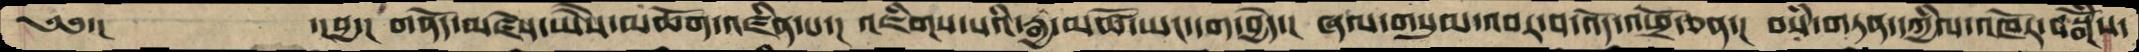༄༅་།     ་།བྱ་།  གནོད་མཛེས་ཡཻས་མཆོག་འཛིན་པ་།   འཇིགས་པའི་རྒྱ་མཚོ་ཡང་དག་བྱེད་།  ཞལ་གསུམ་འབར་བ་འོད་འཕྲོ་ཅན་།  བསཾ་གཏན་དཀྱིལ་འཁོར་བསྒོཾས་
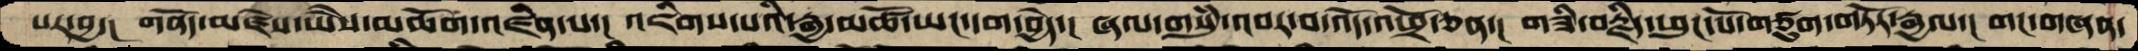པར་བྱ་།  གནོད་མཛེས་ཡཻས་མཆོག་འཛིན་པ་།  འཇིགས་པའི་རྒྱ་མཚོ་ཡང་དག་བྱེད་།  ཞལ་གསུཾ་འབར་བ་འོད་འཕྲོ་ཅན་།  གཟི་བརྗིད་ཕུང་པོ་གཙུག་གཏོར་རྒྱལ་།  གང་གཞན་
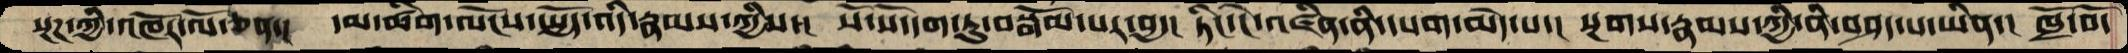སྔཌ་ཀྱི་འཁོར་ལོ་ཅན་།  དམ་ཚིག་ལོངས་སྤྱོད་འདི་རྣམས་ཀྱིས་།  སོ་སོ་དག་ཏུ་བསྒོམ་པར་བྱ་།  ཏིང་ངེ་འཛིན་ནི་དཔག་མེད་པ་།  སྔགས་རྣམས་ཀྱི་ནི་བཤད་པ་ཡིན་།  ཁྲོ་བོ་
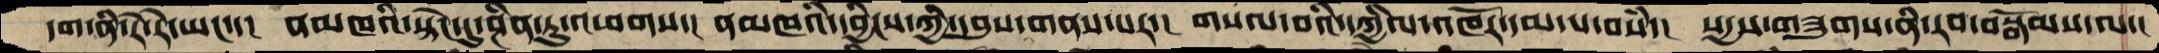དག་ནི་རེ་རེ་ཡང་་།  ནམཁའི་སྟེང་དུ་ཤིན་ཏུ་འཕགས་།  ནམཁའི་དབྱིངས་ཀྱི་དབུས་གནས་པར་།  གསལ་བའི་དཀྱིལ་འཁོར་དམ་པ་བསཾ་།  སདྱས་གཟུགས་ནི་རབ་བསྒོམས་ལ་།
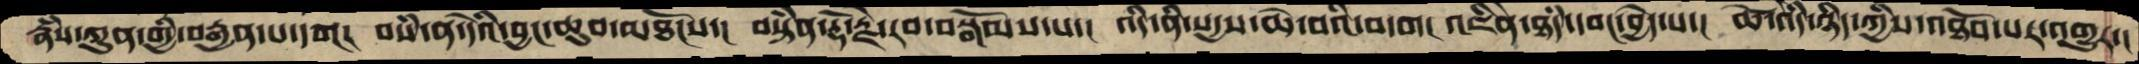རྣཾས་ཀུན་གྱི་བརྒྱན་པ་དག།  བསཾ་ན་དེའི་བྱང་ཆུབ་མཐོངས་།  བསྟིན་རྡོ་རྗེ་རབ་བསྒོམས་པ་།  འདི་ནི་སདྱས་ཆེ་བའི་བདག།  འཇིེན་ཐཾད་དབང་བྱེད་པ་།  ཚེ་འདི་ཉིད་ཀྱིས་འཐོབ་པར་འགྱུར་།
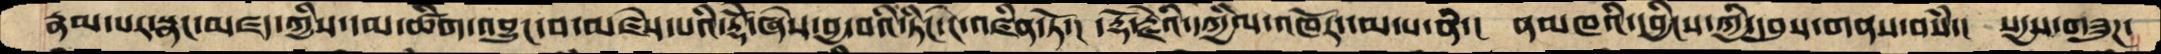རྣམ་པར་སྣང་མཛདཀྱིས་དམ་ཚིག་འབྱུང་བ་མཛེས་པའི་རྡོེ་་ཞེསབྱ་བའི་ཏིང་ངེ་འཛིན་ཏོ་།  ་རྡོ་རྗེའི་དཀྱིལ་འཁོར་དམ་པ་ནི་།  ནམཁའི་དབྱིངས་ཀྱི་དབུས་གནས་བསཾ་།  སདྱས་གཟུཌ་
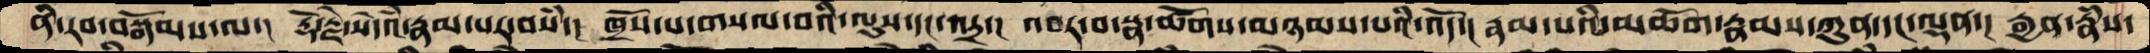ནི་རབ་བསྒོམས་ལ་།  རྡོ་རྗེ་སེདཾའ་རྣམ་པར་བསཾ་།  ཁྲོས་པ་གསལ་བའི་ལུས་དང་འདྲ་།  འབར་བ་སྣ་ཚོགས་མཉམས་པའི་འོད་།  རྣམ་པའི་མཆོག་རྣམས་ཀུན་དང་ལྡན་།  རྒྱན་རྣཾས་
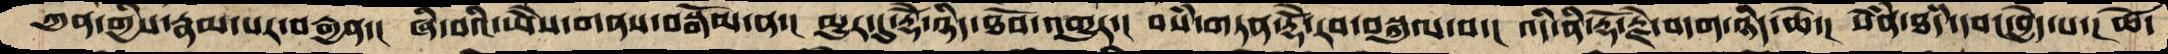ཀུན་གྱིས་རྣམ་པར་བརྒྱན་།  ཞི་བའི་ཡཻས་གནས་བསྒོམ་ན་།  མྱུར་དུ་རྡོེ་ཉིད་ཐོབ་འགྱུར་།  བསཾ་གཏན་རྡོེ་རབ་བསྐུལ་བ་།  འདི་ནི་རྡོ་རྗེ་བདག་ཉིད་ཆེ་།  སེཾན་ཐཾད་དབང་བྱེད་པ་། ཚེ་
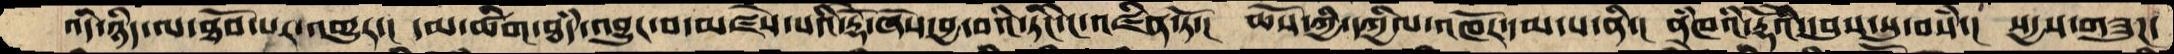འདི་ཉིད་ལ་ཐོབ་པར་འགྱུར་།  དམ་ཚིག་ཐཾད་འབྱུང་བ་མཛེས་པའི་རྡོེ་ཞེས་བྱ་བའི་ཏིང་ངེ་འཛིན་ཏོ་།  ཆོས་ཀྱི་དཀྱིལ་འཁོར་དམ་པ་ནི་།  ནཾཁའི་རྡོེའི་དབུས་སུ་བསཾ་།  སདྱས་གཟུཌ་
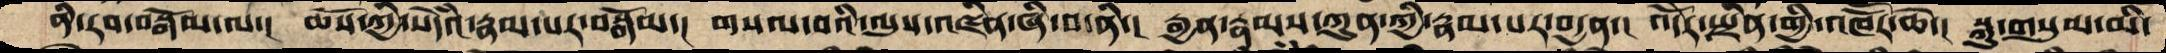ནི་རབ་བསྒོམ་ལ་།  ཆོས་ཀྱི་སེདཾའ་རྣམ་པར་བསྒོམ་།  གསལ་བའི་ལུས་འཛིན་ཞི་བ་ནི་།  རྒྱན་རྣམས་ཀུན་ཀྱི་རྣམ་པར་བདྱན་།  འོདེར་སྤྲིན་གྱི་འཁོརོ་ཆེ་།  སྐུ་གསུམ་མི་
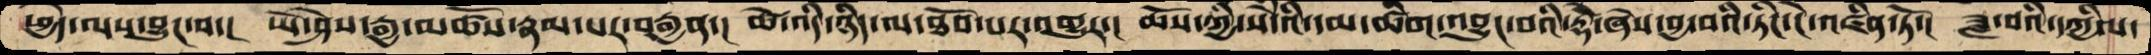ཕྱེད་ལས་བྱུང་བ་།  ཡེ་ཤེས་རྒྱ་མཚོས་རྣམ་པར་བརྒྱན་།  ཚེ་འདི་ཉིད་ལ་ཐོབ་པར་འགྱུར་།  ཆོས་ཀྱི་སེདཾའི་དམ་ཚིག་འབྱུང་བའི་རྡོེ་ཞེས་བྱ་བའི་ཏིང་ངེ་འཛིན་ཏོ་།  ཟླ་བའི་དཀྱིལ་
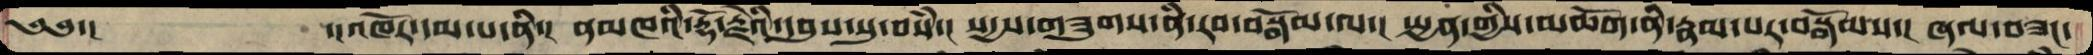༄༅་།       ་།འཁོར་དམ་པ་ནི་།  ནམཁའི་རྡོ་རྗེའི་དབུས་སུ་བསཾ་།  སདྱས་གཟུགས་ནིརབ་བསྒོམ་ལ་།  སྤྱན་གྱིས་མཆོག་ནི་རྣམ་པར་བསྒོམས་།  ཞལ་བཟང་
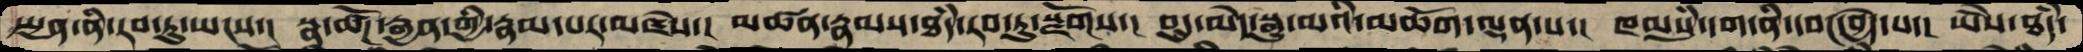སྤྱན་ནི་རབ་ཏུ་ཡངས་།  སྣ་ཚོཌ་རྒྱན་གྱི་རྣམ་པར་མཛེས་།  མཚན་རྣམས་ཐཾད་རབ་ཏུ་སྫོགས་།  བུད་མེད་སྒྱུ་མའི་མཆོག་ལྡན་པ་།  ཁམསུཾ་དག་ནི་དབང་བྱེད་པ་།  ཡཻས་ཐཾད་
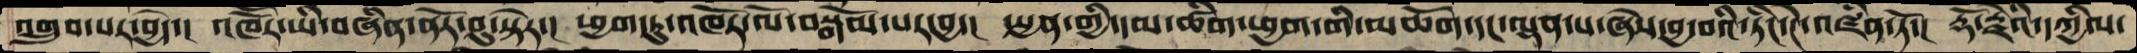འགྲུབ་པར་བྱེད་།  འཁོརོ་ཡི་བཞིན་ནོར་བུ་སྟེར་།  ཕྱག་ཏུ་འཁོར་ལོ་བསྒོམ་པར་བྱ་།  སྤྱན་གྱི་དམ་ཚིག་ཕྱག་གི་མཆོག་དང་ལྡན་པ་ཞེས་བྱ་བའི་ཏིང་ངེ་འཛིན་་ཏོ་།  རྡོ་རྗེའི་དཀྱིལ་
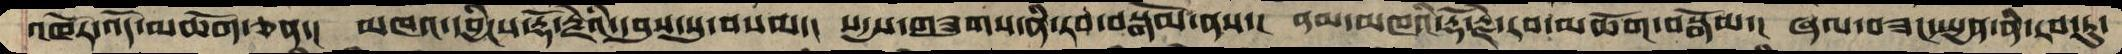འཁོར་འོད་མཆོག་ཅན་།  མཁའ་དབྱིངས་རྡོ་རྗེའི་དབུས་སུ་བསམ་།  སདྱས་གཟུགས་ནི་རབ་བསྒོམ་ནས་།  ནམ་མཁའི་རྡོ་རྗེ་རབ་མཆོག་བསྒོམ་།  ཞལ་བཟང་སྤྱན་ནི་རབ་ཏུ་
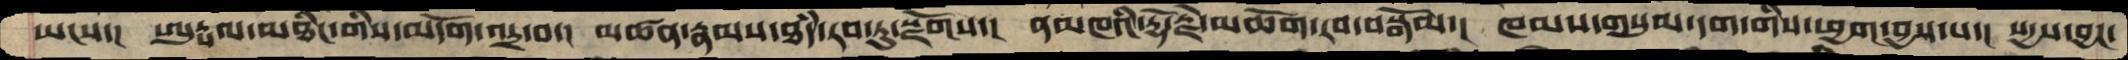ཡངས་།  ཨུཏྤལ་མཐིང་གིས་མདོག་འདྲ་བ་།  མཚན་རྣམས་ཐཾད་རབ་ཏུ་སྫོགས་།  ནམཁའི་རྡོ་རྗེ་མཆོག་རབ་བསྒོམ་།  ཁམས་གསུམ་དག་གིས་ཕྱག་བྱས་པ་།  སདྱས་བྱང་
